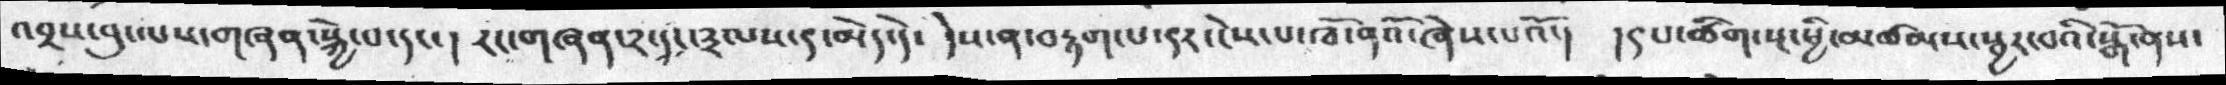འབྲས་བུ་ལས་གཞན་སྐྱེ་བ་དང་། རང་གཞན་༢་དང་༣ལས་དེ་མེད་དེ་  དེས་ན་བརྟག་པ་དེར་ངེས་པ་ཁོ་ནའོ་།  །དེཔ་ཚིག་སྔ་ཕྱི་མཚམས་སྦྱར་བའི་སྒོ་ནས་
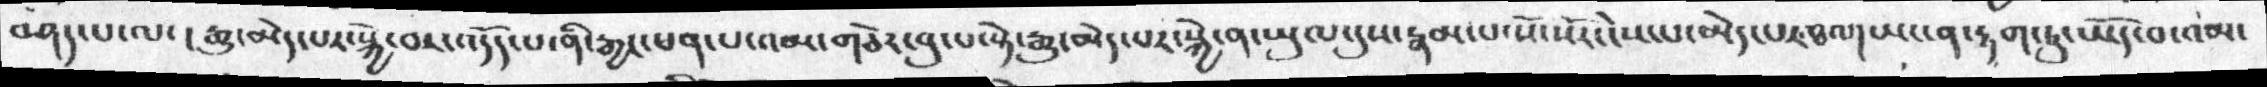བཤད་པ་ལ་ །རྒྱུ་མེད་པར་སྐྱེ་བར་འདོད་པ་ནི་རྒྱང་ཕན་པ་འམ་གཅེར་བུ་པ་སྟེ་རྒྱུ་མེད་པར་སྐྱེ་ན་ཡུལ་དུས་རྣམ་པ་སོ་སོར་ངེས་པ་མེད་པར་ཐལ་།ཡང་ན་རྟག་ཏུ་ཡོད་བ་འམ་
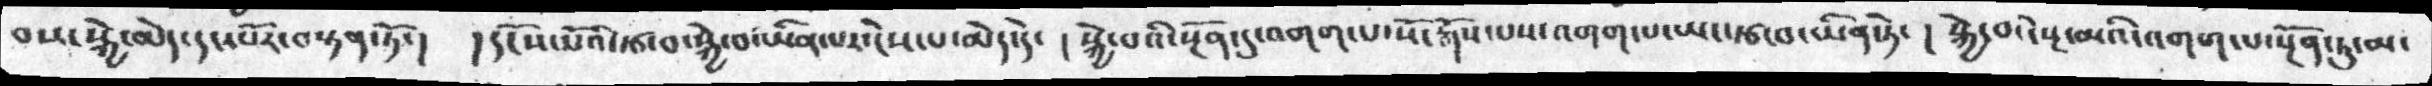བས་སྐྱེ་མེད་དང་པོར་བསྟན་ཏོ་།  ། དངོས་པོའི་རྩ་བ་སྐྱེ་བ་ཡིན་པར་ངེས་པ་མེད་དེ་  ། སྐྱེ་པའི་སྔོན་དུ་འགག་པ་སོང་རྒོས་པས་འགག་ཡང་རྩ་བ་ཡིན་ཏེ་ ། སྐྱེ་བ་དེ་སྔ་མའི་འགག་པ་སྔོན་ཏུ་མ་
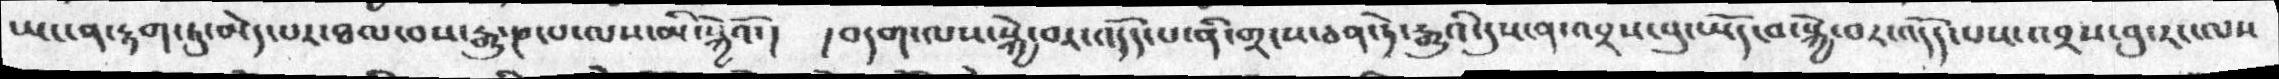ཡང་ན་རྟག་ཏུ་མེད་པར་ཐལ་བས་རྒྱུ་ཎ་པ་ལས་མི་སྐྱེའོ་།  །བདག་ལས་སྐྱེ་བར་འདོད་པ་ནི་གྲངས་ཅན་ཏེ་རྒྱུའི་དུས་ན་འབྲས་བུ་ཡོད་བ་སྐྱེ་བར་འདོད་པས་འབྲས་བུ་རང་ལས
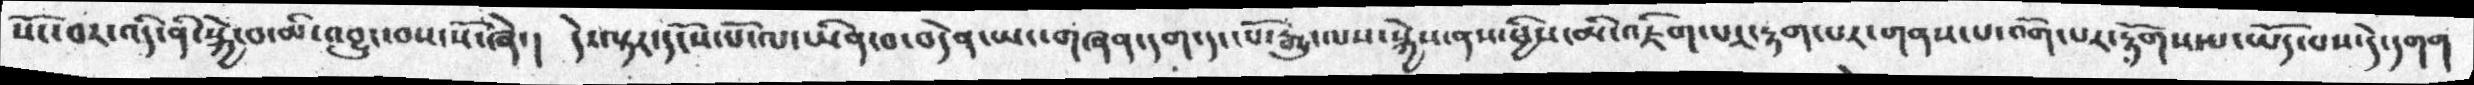སོང་བར་འདི་ནི་སྐྱེ་བ་མི་འབྱུང་བས་སོ་ཞེ་།   དེ་ལྟར་དངོས་པོ་ལ་ཡིན་བ་བདེན་ཡང་གཞན་དག་དང་པོ་རྒྱུ་ལས་སྐྱེས་ནས་ཕྱིས་མི་འཇོག་པར་རྟག་པར་གནས་པ་འོག་པར་རྟོགས་པ་ཡོད་པས་དེ་དགག
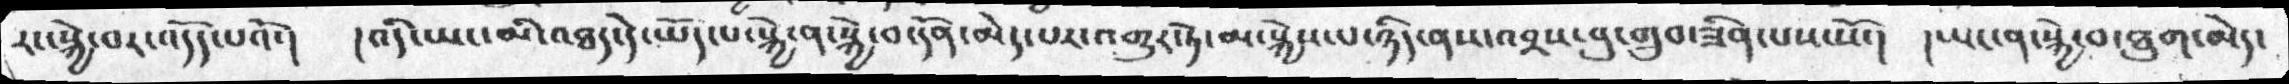རང་སྐྱེ་བར་འདོད་པའོ་།  ། འདི་ཡང་མི་འཐད་དེ་ཡོད་པ་སྐྱེ་ན་སྐྱེ་བ་དོན་མེད་པར་འགྱུར་ཏེ་མ་སྐྱེས་པ་ཉིད་ནས་འབྲས་བུ་གྲུབ་ཟིན་པས་སོ་།  །ཡང་ན་སྐྱེ་བ་ཐུག་མེད་
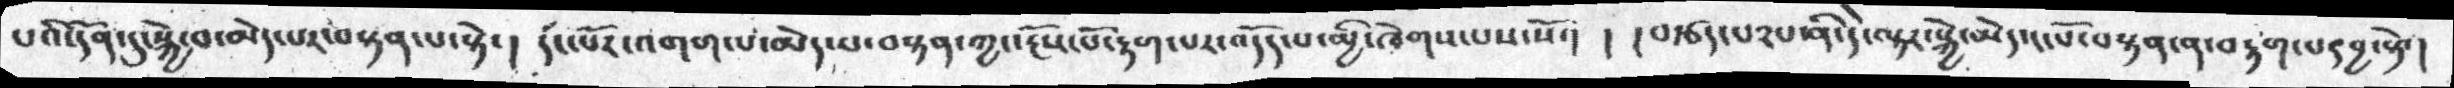པའི་དོན་དུ་སྐྱེ་བ་མེད་པར་བསྟན་པ་སྟེ་།  དང་པོར་འགག་པ་མེད་པ་བསྟན་ཀྱང་རྔོས་པོ་རྟག་པར་འདོད་པ་མྱི་ཁེགས་པས་སོ་།  །  །བརྩད་པ༢པ་ནི་དེ་ལྟར་སྐྱེ་མེད་དངཔོ་བསྟན་ན་བརྟག་པར་བྱ་སྟེ་།
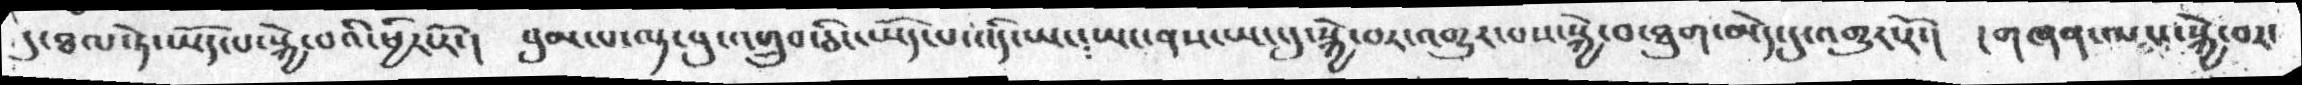དུ་ཐལ་ཏེ་ཡོད་པ་སྐྱེ་པའི་ཕྱིར་རོ་།  བུམ་པ་ལྟ་བུ་འགྲུབ་ཅིང་ཡོད་པ་འདི་ཡང༴ཡང་ནས་ཡང་དུ་སྐྱེ་བར་འགྱུར་པས་སྐྱེ་བ་ཐུག་མེད་དུ་འགྱུར་རོ་།  ། གཞན་ལས་སྐྱེ་བར་
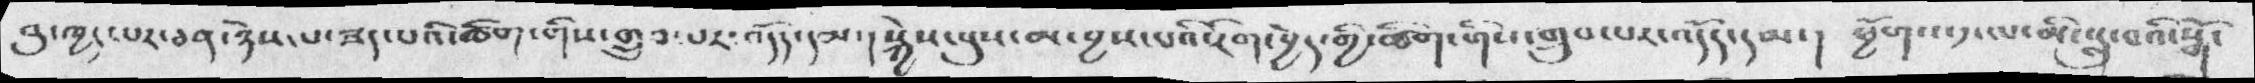བུ་ཁྱད་པར་ཅན་ཉེས་པ་ཟད་པའི་ཚིག་གིས་གྲུབ་པར་འདོད་དམ་། སྐྱེས་བུས་མ་བྱས་པའི་རིག་བྱེད་གྱི་ཚིག་གིས་གྲུབ་པར་འདོད་དམ་། ཕྱོགས་དུ་ལ་མི་སླུ་བའི་སྒོ་
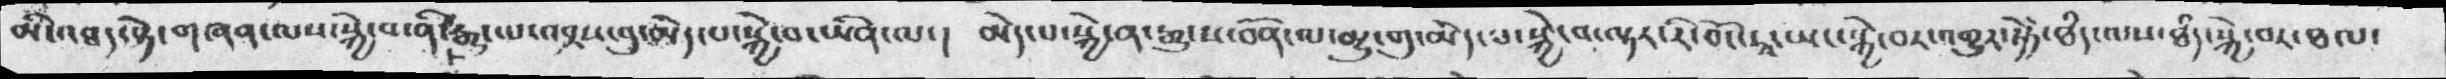མི་འཐད་སྟེ་གཞན་ལས་སྐྱེ་བ་ནི་རྒྱུ་ལ་འབྲས་བུ་མེད་པ་སྐྱེ་བ་ཡིན་ལ་།   མེད་པ་སྐྱེ་ན་རྒྱུ་ས་བོན་ལ་མྱུ་གུ་མེད་པ་སྐྱེ་བ་ལྟར་རི་བོང་རྭ་་ཡང་སྐྱེ་བར་འགྱུར་ཏེཏེ་ཐཾད་ལས་ཐཾད་སྐྱེ་བར་ཐལ་
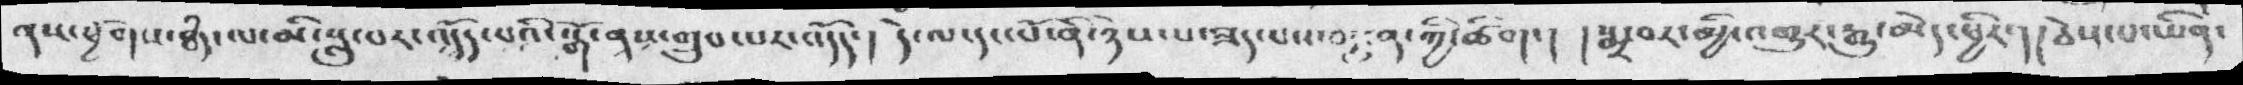ནས་ཕྱོགས་ཐཾད་ལ་མི་སླུ་པར་འདོད་པའི་སྒོ་ནས་གྲུབ་པར་འདོད་།  དེ་ལ་དང་པོ་ནི་ཉེས་པ་ཟད་པས་བརྗུན་ཀྱི་ཚིག་།  ། སྨྲ་བར་མྱི་འགྱུར་རྒྱུ་མེད་ཕྱིར་། །ཅེས་པ་ཡིན་
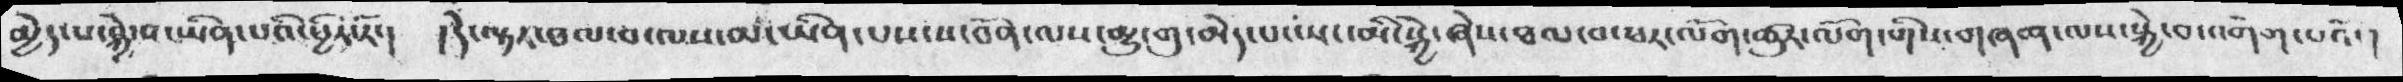མྱེད་པ་སྐྱེ་བ་ཡིན་པའི་ཕྱིར་རོ་།  །དེ་ལྟར་ཐལ་བ་ལས་མ་ཡིན་པས་ས་བོན་ལས་མྱུ་གུ་མེད་པ་ཡང་མི་སྐྱེ་ཞེས་ཐལ་བ་ཕར་ལོག་ཚུལ་ལོག་གིས་གཞན་ལས་སྐྱེ་བ་འགོག་པའོ་།
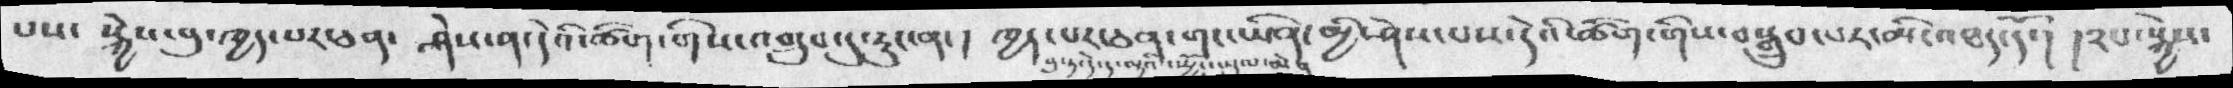པས་   སྐྱེས་བུ་ཁྱད་པར་ཅན་   ཤེས་ན་དེའི་ཚིག་གིས་འགྲུབ་དུ་རུང་ན་།   ཁྱད་པར་ཅན་གང་ཡིན་མྱི་ཤེས་པས་དེའི་ཚིག་གིས་བསྒྲུབ་པར་མི་འཐད་དོ་།   །༢པ་སྐྱེས་
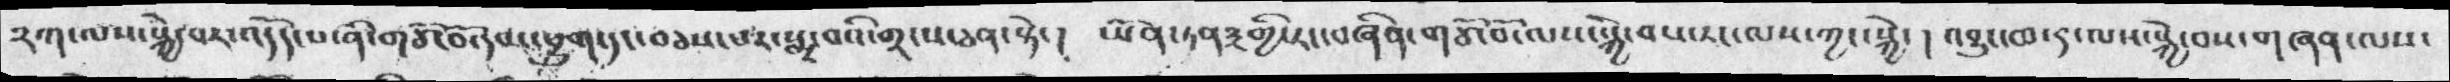༢ག་ལས་སྐྱེ་པར་འདོད་པ་ནི་གཙོ་བོ་དབང་ཕྱུག་དང་བཅས་པར་སྨྲ་བའི་གྲངས་ཅན་སྟེ་། ཡོན་ཏན༣གྱི་རང་བཞིན་གཙོ་བོ་ལས་སྐྱེ་བས་རང་ལས་ཀྱང་སྐྱེ་ ། འབྱུང་བ་༤་ལས་སྐྱེ་བས་གཞན་ལས་
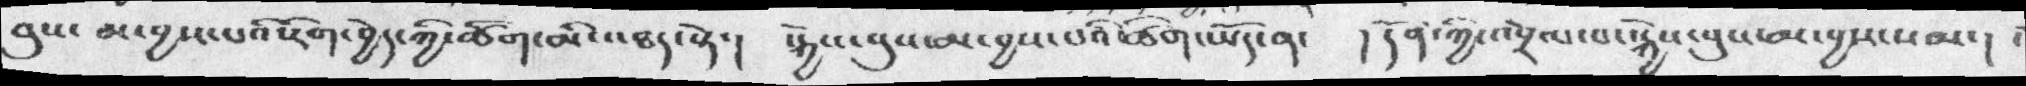བུས་ མ་བྱས་པའི་རིག་བྱེད་ཀྱི་ཚིག་མི་འཐད་སྟེ་།  སྐྱེས་བུས་མ་བྱས་པའི་ཚིག་ཡོད་ན་  ། དོན་ཀྱི་འབྲེལ་བ་སྐྱེས་བུས་མ་བྱས་སམ་།
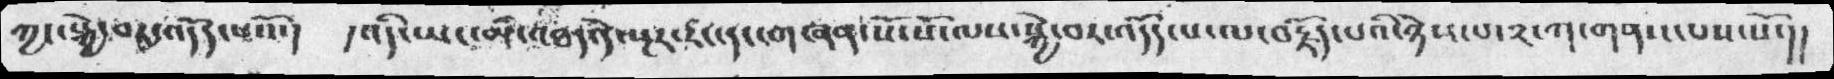ཀྱང་སྐྱེ་བར་འདོད་པའོ་།  །འདི་ཡང་མི་འཐད་དེ་སྔར་རང་དང་གཞན་སོ་སོ་ལས་སྐྱེ་བར་འདོད་པ་ལ་བརྗོད་པའི་ཉེས་པ་༢་ཀ་གནས་པས་སོ་།།
